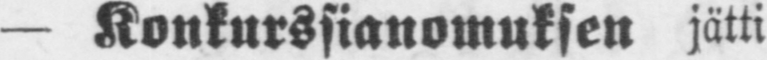— Konkurssianomuksen jätti
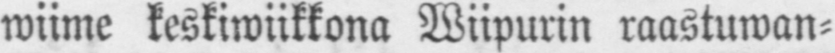wiime keskiwiikkona Wiipurin raastuwan-
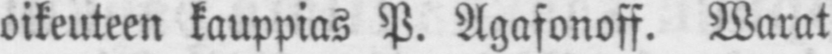oikeuteen kauppias P. Agafonoff. Warat
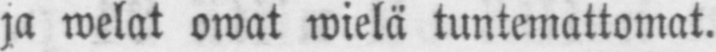ja welat owat wielä tuntemattomat.
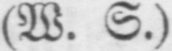(W.S.)
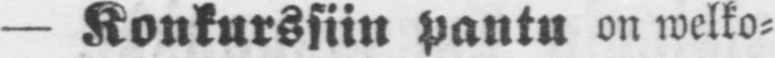— Konkurssiin pantu on welko-
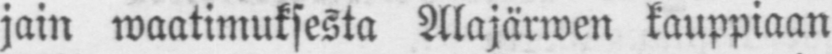jain waatimuksesta Alajärwen kauppiaan
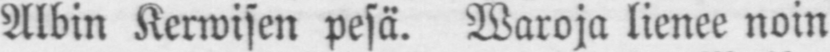Albin Kerwisen pesä. Waroja lienee noin
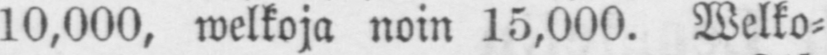10,000, weltoja noin 15,000. Welko-
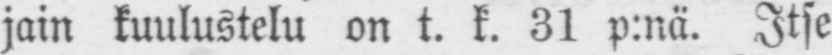jain kuulustelu on t. k. 31 p:nä. Itse
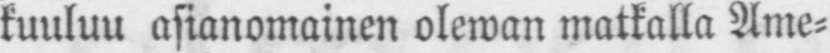kuuluu asianomainen olewan matkalla Ame-
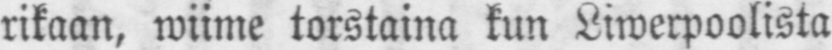rikaan, wiime torstaina kun Liwerpoolista
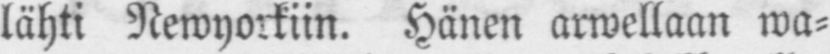lähti Newyorkiin. Hänen arweliaan wa-
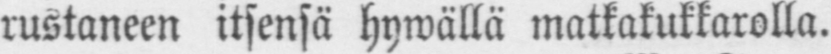rustaneen itsensä hywällä matkakukkarolla.
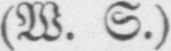(W.S.)
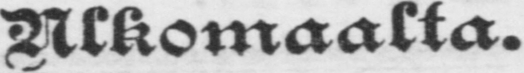Ulkomaalta.
